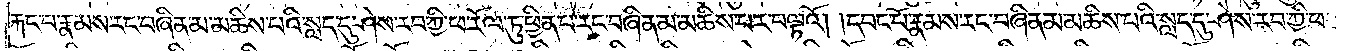རྐང་པ་རྣམས་རང་བཞིན་མ་མཆིས་པའི་སླད་དུ་ཤེས་རབ་ཀྱི་ཕ་རོལ་ཏུ་ཕྱིན་པ་རང་བཞིན་མ་མཆིས་པར་བལྟའོ། །དབང་པོ་རྣམས་རང་བཞིན་མ་མཆིས་པའི་སླད་དུ་ཤེས་རབ་ཀྱི་ཕ་
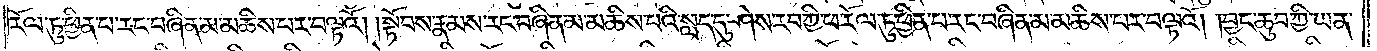རོལ་ཏུ་ཕྱིན་པ་རང་བཞིན་མ་མཆིས་པར་བལྟའོ། །སྟོབས་རྣམས་རང་བཞིན་མ་མཆིས་པའི་སླད་དུ་ཤེས་རབ་ཀྱི་ཕ་རོལ་ཏུ་ཕྱིན་པ་རང་བཞིན་མ་མཆིས་པར་བལྟའོ། །བྱང་ཆུབ་ཀྱི་ཡན་
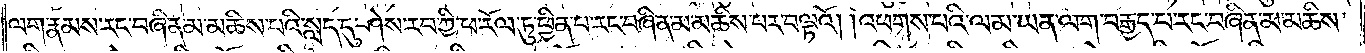ལག་རྣམས་རང་བཞིན་མ་མཆིས་པའི་སླད་དུ་ཤེས་རབ་ཀྱི་ཕ་རོལ་ཏུ་ཕྱིན་པ་རང་བཞིན་མ་མཆིས་པར་བལྟའོ། །འཕགས་པའི་ལམ་ཡན་ལག་བརྒྱད་པ་རང་བཞིན་མ་མཆིས་
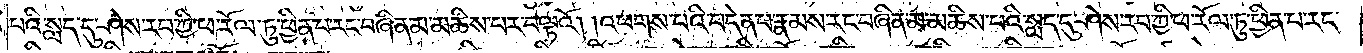པའི་སླད་དུ་ཤེས་རབ་ཀྱི་ཕ་རོལ་ཏུ་ཕྱིན་པ་རང་བཞིན་མ་མཆིས་པར་བལྟའོ། །འཕགས་པའི་བདེན་པ་རྣམས་རང་བཞིན་མ་མཆིས་པའི་སླད་དུ་ཤེས་རབ་ཀྱི་ཕ་རོལ་ཏུ་ཕྱིན་པ་རང་
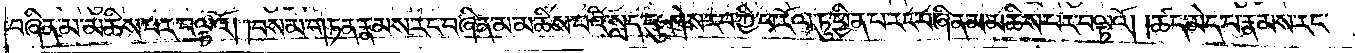བཞིན་མ་མཆིས་པར་བལྟའོ། །བསམ་གཏན་རྣམས་རང་བཞིན་མ་མཆིས་པའི་སླད་དུ་ཤེས་རབ་ཀྱི་ཕ་རོལ་ཏུ་ཕྱིན་པ་རང་བཞིན་མ་མཆིས་པར་བལྟའོ། །ཚད་མེད་པ་རྣམས་རང་
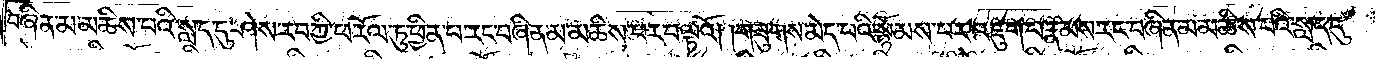བཞིན་མ་མཆིས་པའི་སླད་དུ་ཤེས་རབ་ཀྱི་ཕ་རོལ་ཏུ་ཕྱིན་པ་རང་བཞིན་མ་མཆིས་པར་བལྟའོ། །གཟུགས་མེད་པའི་སྙོམས་པར་འཇུག་པ་རྣམས་རང་བཞིན་མ་མཆིས་པའི་སླད་དུ་
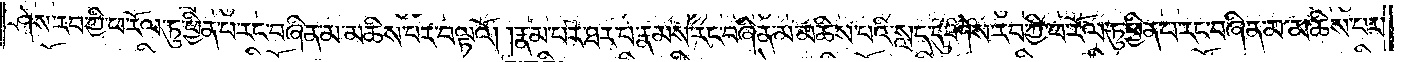ཤེས་རབ་ཀྱི་ཕ་རོལ་ཏུ་ཕྱིན་པ་རང་བཞིན་མ་མཆིས་པར་བལྟའོ། །རྣམ་པར་ཐར་པ་རྣམས་རང་བཞིན་མ་མཆིས་པའི་སླད་དུ་ཤེས་རབ་ཀྱི་ཕ་རོལ་ཏུ་ཕྱིན་པ་རང་བཞིན་མ་མཆིས་པར་
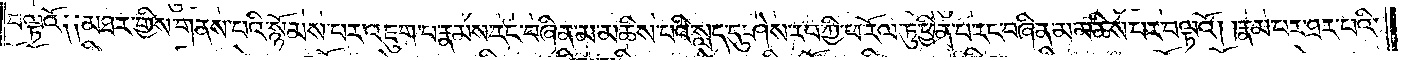བལྟའོ༑ ༑མཐར་གྱིས་གནས་པའི་སྙོམས་པར་འཇུག་པ་རྣམས་རང་བཞིན་མ་མཆིས་པའི་སླད་དུ་ཤེས་རབ་ཀྱི་ཕ་རོལ་ཏུ་ཕྱིན་པ་རང་བཞིན་མ་མཆིས་པར་བལྟའོ། །རྣམ་པར་ཐར་པའི་
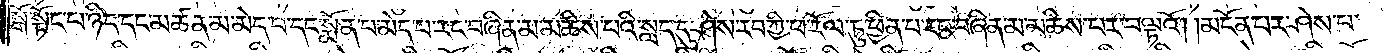སྒོ་སྟོང་པ་ཉིད་དང་མཚན་མ་མེད་པ་དང་སྨོན་པ་མེད་པ་རང་བཞིན་མ་མཆིས་པའི་སླད་དུ་ཤེས་རབ་ཀྱི་ཕ་རོལ་ཏུ་ཕྱིན་པ་རང་བཞིན་མ་མཆིས་པར་བལྟའོ། །མངོན་པར་ཤེས་པ་
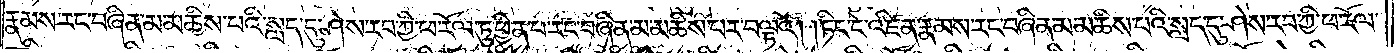རྣམས་རང་བཞིན་མ་མཆིས་པའི་སླད་དུ་ཤེས་རབ་ཀྱི་ཕ་རོལ་ཏུ་ཕྱིན་པ་རང་བཞིན་མ་མཆིས་པར་བལྟའོ། །ཏིང་ངེ་འཛིན་རྣམས་རང་བཞིན་མ་མཆིས་པའི་སླད་དུ་ཤེས་རབ་ཀྱི་ཕ་རོལ་
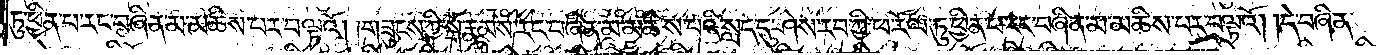ཏུ་ཕྱིན་པ་རང་བཞིན་མ་མཆིས་པར་བལྟའོ། །གཟུངས་ཀྱི་སྒོ་རྣམས་རང་བཞིན་མ་མཆིས་པའི་སླད་དུ་ཤེས་རབ་ཀྱི་ཕ་རོལ་ཏུ་ཕྱིན་པ་རང་བཞིན་མ་མཆིས་པར་བལྟའོ། །དེ་བཞིན་
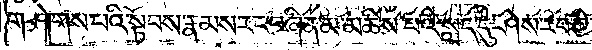གཤེགས་པའི་སྟོབས་རྣམས་རང་བཞིན་མ་མཆིས་པའི་སླད་དུ་ཤེས་རབ་ཀྱི་
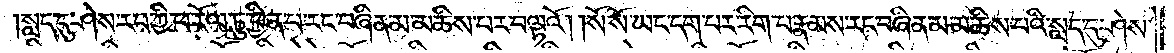སླད་དུ་ཤེས་རབ་ཀྱི་ཕ་རོལ་ཏུ་ཕྱིན་པ་རང་བཞིན་མ་མཆིས་པར་བལྟའོ། །སོ་སོ་ཡང་དག་པར་རིག་པ་རྣམས་རང་བཞིན་མ་མཆིས་པའི་སླད་དུ་ཤེས་
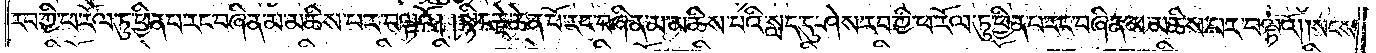རབ་ཀྱི་ཕ་རོལ་ཏུ་ཕྱིན་པ་རང་བཞིན་མ་མཆིས་པར་བལྟའོ། །སྙིང་རྗེ་ཆེན་པོ་རང་བཞིན་མ་མཆིས་པའི་སླད་དུ་ཤེས་རབ་ཀྱི་ཕ་རོལ་ཏུ་ཕྱིན་པ་རང་བཞིན་མ་མཆིས་པར་བལྟའོ། །སངས་
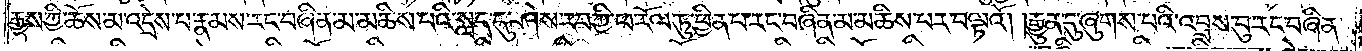རྒྱས་ཀྱི་ཆོས་མ་འདྲེས་པ་རྣམས་རང་བཞིན་མ་མཆིས་པའི་སླད་དུ་ཤེས་རབ་ཀྱི་ཕ་རོལ་ཏུ་ཕྱིན་པ་རང་བཞིན་མ་མཆིས་པར་བལྟའོ། །རྒྱུན་དུ་ཞུགས་པའི་འབྲས་བུ་རང་བཞིན་
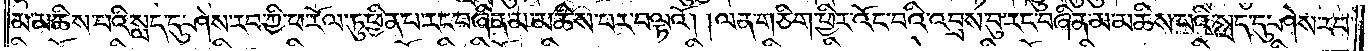མ་མཆིས་པའི་སླད་དུ་ཤེས་རབ་ཀྱི་ཕ་རོལ་ཏུ་ཕྱིན་པ་རང་བཞིན་མ་མཆིས་པར་བལྟའོ། །ལན་གཅིག་ཕྱིར་འོང་བའི་འབྲས་བུ་རང་བཞིན་མ་མཆིས་པའི་སླད་དུ་ཤེས་རབ་
